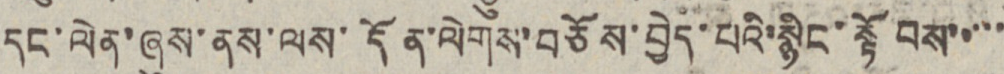དང་ལེན་ཞུས་ནས་ལས་དོན་ལེགས་བཅོས་བྱེད་པའི་སྙིང་སྟོབས་་་་་
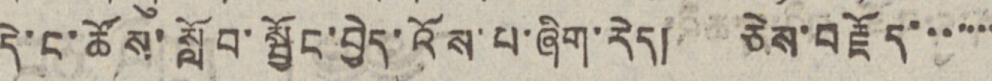དེ་ང་ཚོས་སློབ་སྦྱོང་བྱེད་འོས་པ་ཞིག་རེད། ཅེས་བརྗོད་་་་་་་
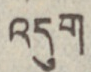འདུག
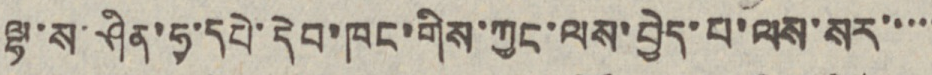ལྷ་ས་ཤིན་ཧྭ་དཔེ་དེབ་ཁང་གིས་ཀྱང་ལས་བྱེད་པ་ལས་སར་་་་་
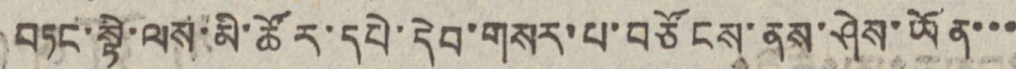བཏང་སྟེ་ལས་མི་ཚོར་དཔེ་དེབ་གསར་པ་བཙོངས་ནས་ཤེས་ཡོན་་་
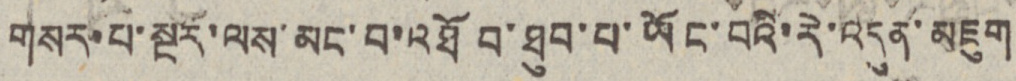གསར་པ་སྔར་ལས་མང་བ་འཐོབ་ཐུབ་པ་ཡོང་བའི་རེ་འདུན་མཇུག
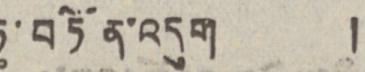ཏུ་བཏོན་འདུག །
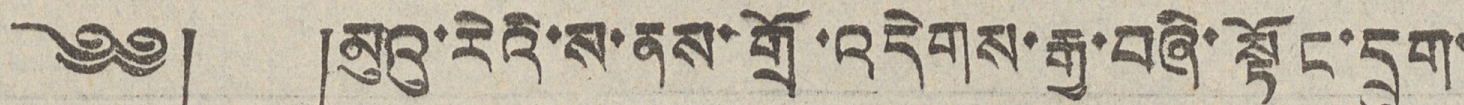༄༅། །མུའུ་རེའི་ས་ནས་གྲོ་འདེགས་རྒྱ་བཞི་སྟོང་དྲུག་
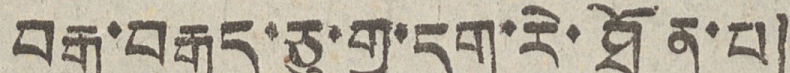བརྒྱ་བརྒྱད་ཅུ་གྱ་དགུ་རེ་ཐོན་པ།
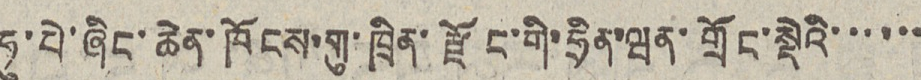ཧུ་པེ་ཞིང་ཆེན་ཁོངས་གུ་ཁྲིན་རྫོང་གི་ཧྲིན་ཝན་གྲོང་སྡེའི་་་་་་
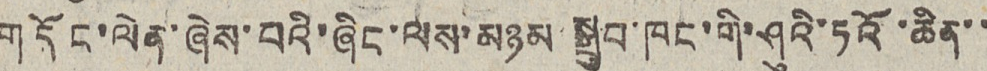གདོང་ལེན་ཞེས་པའི་ཞིང་ལས་མཉམ སྒྲུབ་ཁང་གི་ཤུའི་ཏའོ་ཆིན་་
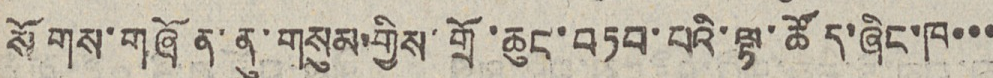སོགས་གཞོན་ནུ་གསུམ་གྱིས་གྲོ་ཆུང་བཏབ་པའི་ལྟ་ཚོད་ཞིང་ཁ་་་
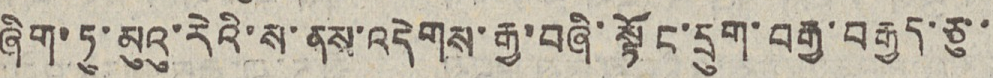ཞིག་ཏུ་མུའུ་རེའི་ས་ནས་འདེགས་རྒྱ་བཞི་སྟོང་དྲུག་བརྒྱ་བརྒྱད་ཅུ་་
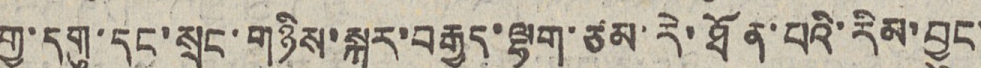གྱ་དགུ་དང་སྲང་གཉིས་སྐར་བརྒྱད་ལྷག་ཙམ་རེ་ཐོན་པའི་རིམ་བྱུང་
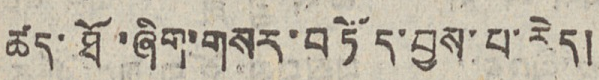ཚད་ཐོ་ཞིག་གསར་བཏོད་བྱས་པ་རེད།
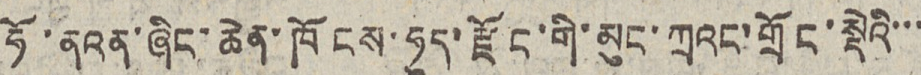ཧོ་ནའན་ཞིང་ཆེན་ཁོངས་ཧུད་རྫོང་གི་མུང་ཀྲའང་གྲོང་སྡེའི་་་
